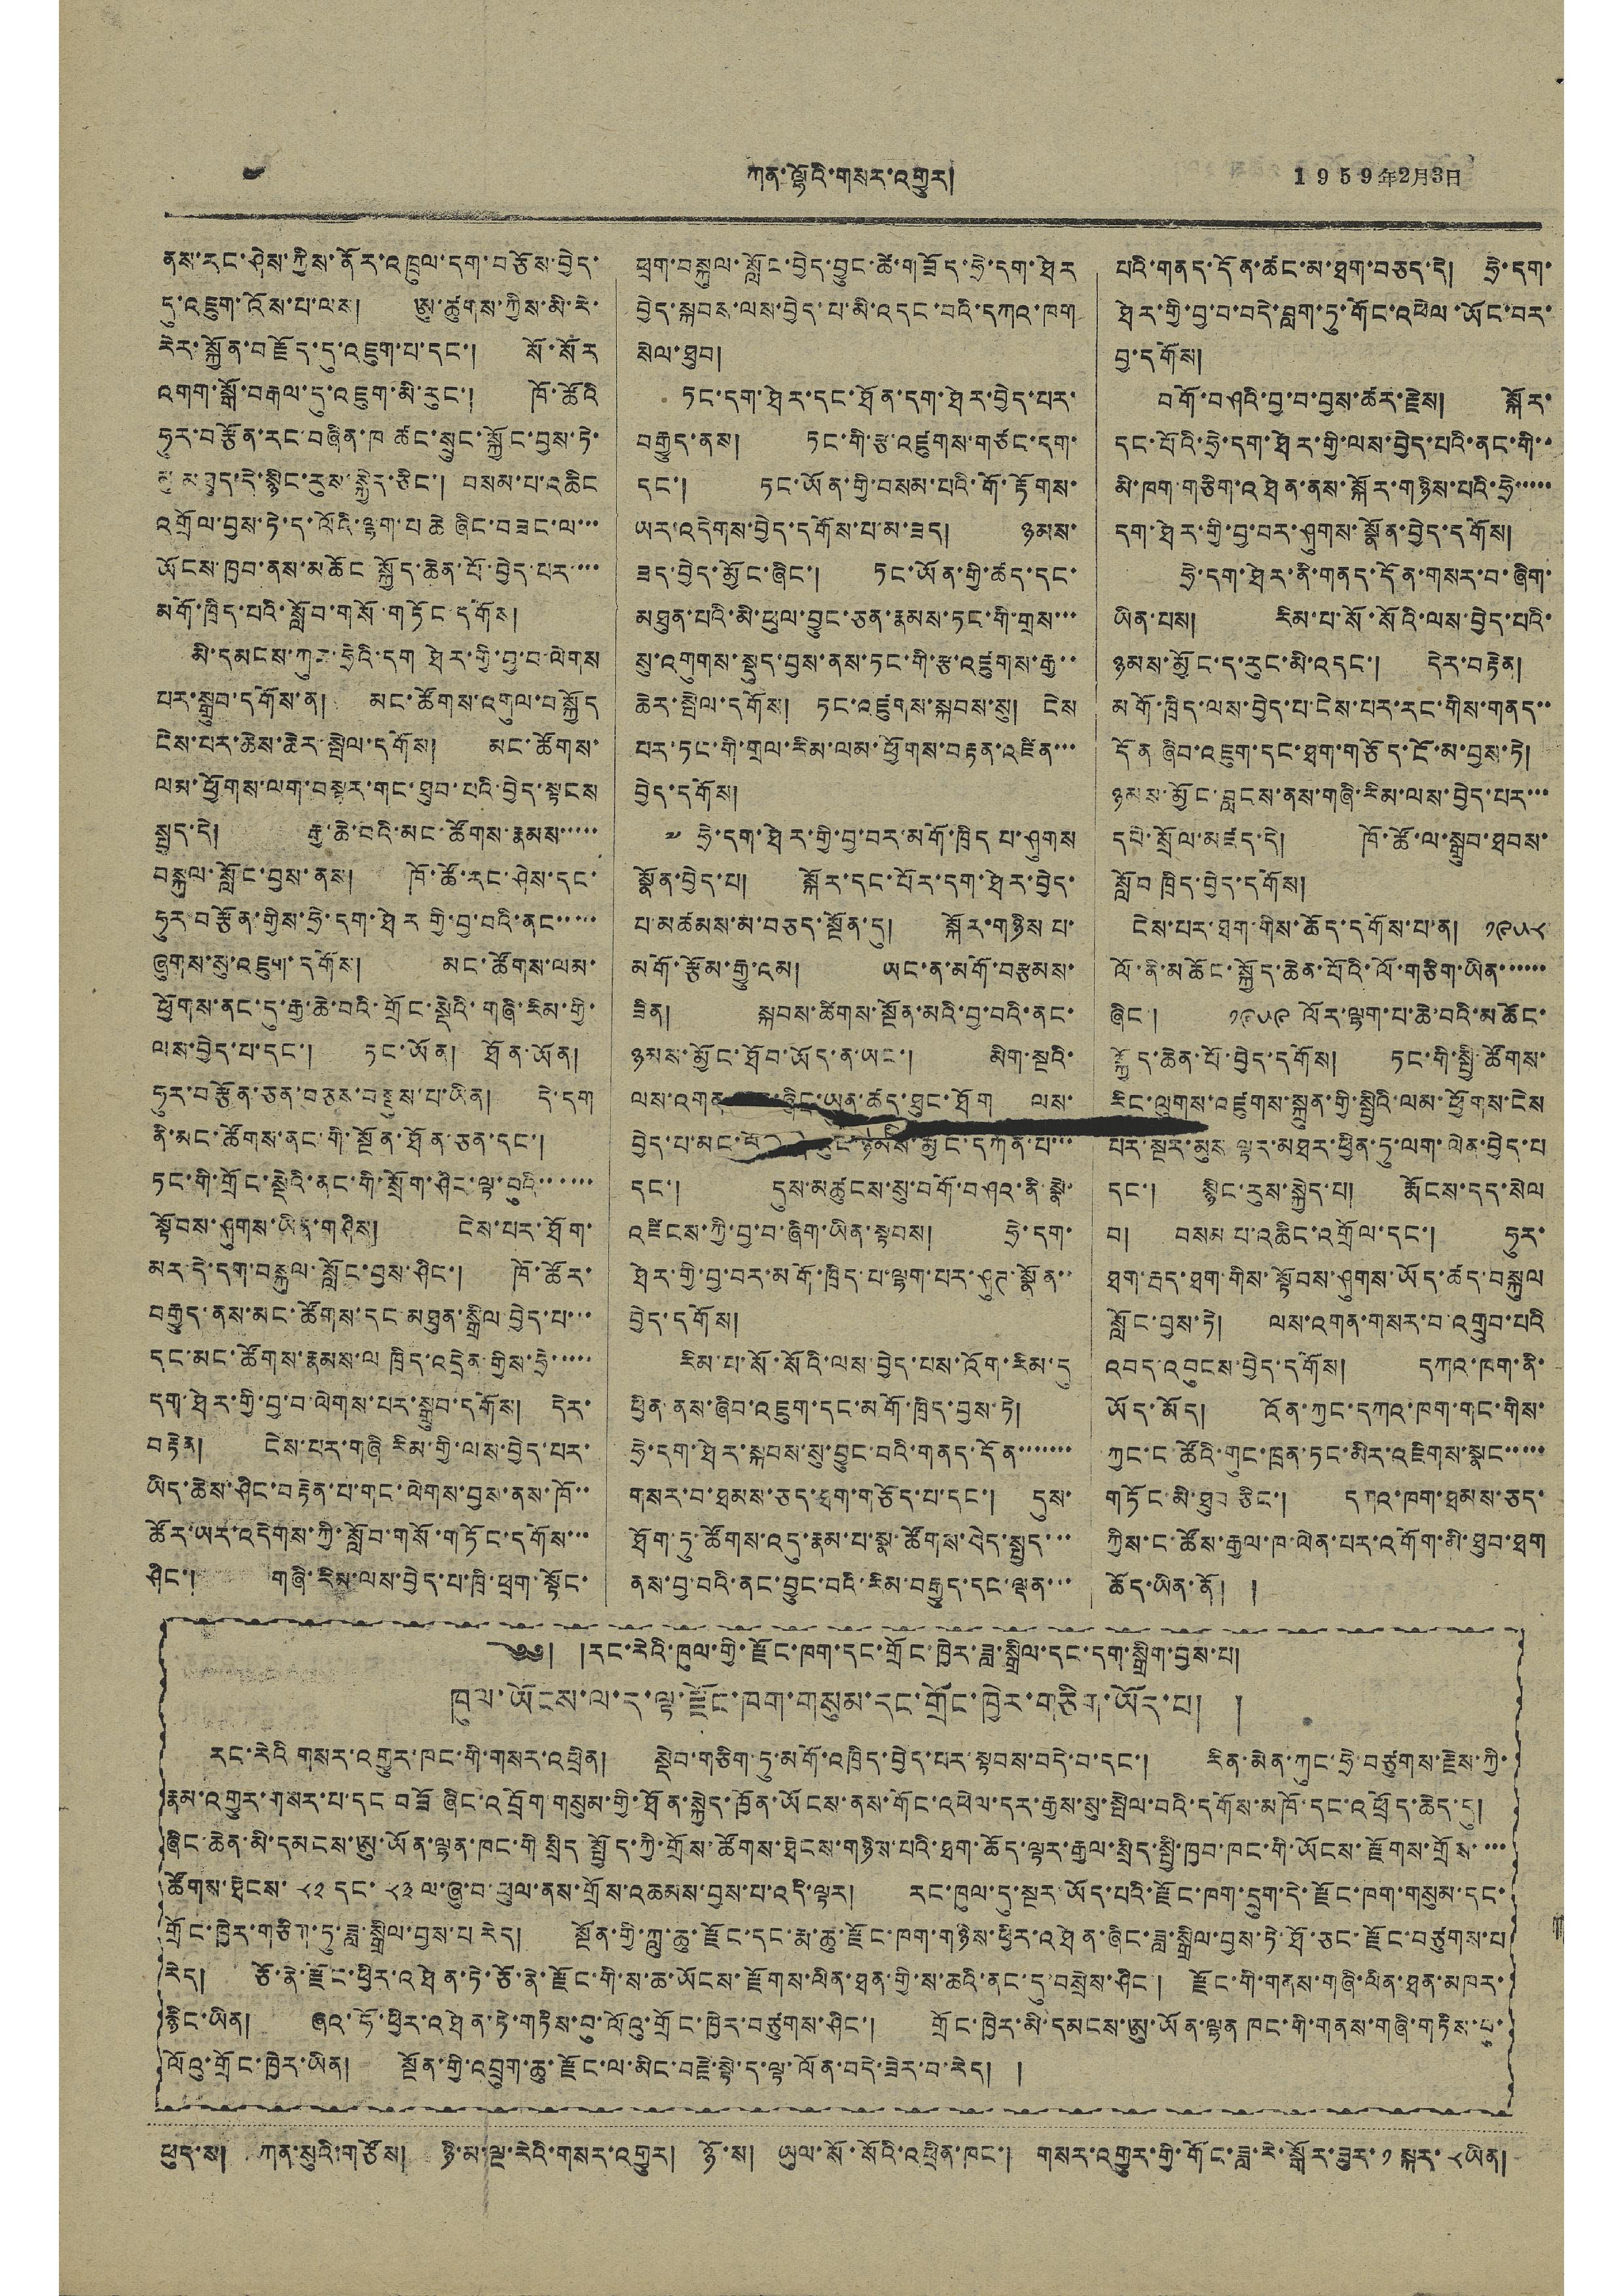༤ ཀན་ལྷོའི་གསར་འགྱུར། 1959年2月3日
ནས་རང་ཤེས་ཀྱིས་ནོར་འཁྲུལ་དག་བཅོས་བྱེད་
དུ་འཇུག་འོས་པ་ལས། ཨུ་ཚུགས་ཀྱིས་མི་རེ་
རེར་སྐྱོན་བརྗོད་དུ་འཇུག་པ་དང་། སོ་སོར
འགག་སྒོ་བརྒལ་དུ་འཇུག་མི་རུང་། ཁོ་ཚོའི
ཧུར་བརྩོན་རང་བཞིན་ཁ་ཚང་སྲུང་སྐྱོང་བྱས་ཏེ་
མུ་མཐུད་དེ་སྙིང་རུས་སྐྱེད་ཅིང་། བསམ་པ་འཆིང
འགྲོལ་བྱས་ཏེ་ད་ལོའི་ལྷག་པ་ཆེ ཞིང་བཟང་ལ་་་
ཡོངས་ཁྱབ་ནས་མཆོང་སྐྱོད་ཆེན་པོ་བྱེད་པར་་་་
མགོ་ཁྲིད་པའི་སློབ་གསོ་གཏོང་དགོས།
མི་དམངས་ཀུང་ཧྲེའི་དག ཐེར་གྱི་བྱ་བ་ལེགས
པར་སྒྲུབ་དགོས་ན། མང་ཚོགས་འགུལ་བསྐྱོད
ངེས་པར་ཆེས་ཆེར་སྤེལ་དགོས། མང་ཚོགས་
ལམ་ཕྱོགས་ལག་བསྟར་གང་ཐུབ་པའི་བྱེད་སྟངས
སྤྱད་དེ། རྒྱ་ཆེ་བའི་མང་ཚོགས་རྣམས་་་་་
བསྐུལ་སློང་བྱས་ནས། ཁོ་ཚོ་རང་ཤེས་དང་
ཧུར་བརྩོན་གྱིས་ཧྲེ་དག་ཐེར གྱི་བྱ་བའི་ནང་་་་་
ཞུགས་སུ་འཇུག་དགོས། མང་ཚོགས་ལམ་
ཕྱོགས་ནང་དུ་རྒྱ་ཆེ་བའི་གྲོང་སྡེའི་གཞི་རིམ་གྱི་
ལས་བྱེད་པ་དང་། ཏང་ཡོན། ཐོན་ཡོན།
ཧུར་བརྩོན་ཅན་བཅས་བསྡུས་པ་ཡིན། དེ་དག
ནི་མང་ཚོགས་ནང་གི་སྔོན་ཐོན་ཅན་དང་།
ཏང་གི་གྲོང་སྡེའི་ནང་གི་སྲོག་ཤིང་ལྟ་བུའི་་་་་་
སྟོབས་ཤུགས་ཡིན་གཤིས། ངེས་པར་ཐོག་
མར་དེ་དག་བསྐུལ་སློང་བྱས་ཤིང་། ཁོ་ཚོར་
བརྒྱུད་ནས་མང་ཚོགས་དང་མཐུན་སྒྲིལ བྱེད་པ་་་
དང་མང་ཚོགས་རྣམས་ལ་ཁྲིད་འདྲེན་གྱིས་ཧྲེ་་་་་
དག་ཐེར་གྱི་བྱ་བ་ལེགས་པར་སྒྲུབ་དགོས། དེར་
བརྟེན། ངེས་པར་གཞི་རིམ་གྱི་ལས་བྱེད་པར་
ཡིད་ཆེས་ཤིང་བརྟེན་པ་གང་ལེགས་བྱས་ནས་ཁོ་་
ཚོར་ཡར་འདེགས་ཀྱི་སློབ་གསོ་གཏོང་དགོས་་་
ཤིང་། གཞི་རིམ་ལས་བྱེད་པ་ཁྲི་ཕྲག་སྟོང་
ཕྲག་བསྐུལ་སློང་བྱེད་བྱུང་ཚེ་གཟོད་ཧྲེ་དག་ཐེར
བྱེད་སྐབས་ལས་བྱེད་པ་མི་འདང་བའི་དཀའ་ཁག
སེལ་ཐུབ།
ཏང་དག་ཐེར་དང་ཐོན་དག་ཐེར་བྱེད་པར་
བརྒྱུད་ནས། ཏང་གི་རྩ་འཛུགས་གཙང་དག་
དང་། ཏང་ཡོན་གྱི་བསམ་པའི་གོ་རྟོགས་
ཡར་འདེགས་བྱེད་དགོས་པ་མ་ཟད། ཉམས་
ཟད་བྱེད་མྱོང་ཞིང་། ཏང་ཡོན་གྱི་ཚད་དང་
མཐུན་པའི་མི་ཕུལ་བྱུང་ཅན་རྣམས་ཏང་གི་གྲས་་་
སུ་འགུགས་སྡུད་བྱས་ནས་ཏང་གི་རྩ་འཛུགས་རྒྱ་་
ཆེར་སྤེལ་དགོས། ཏང་འཛུགས་སྐབས་སུ། ངེས
པར་ཏང་གི་གྲལ་རིམ་ལམ་ཕྱོགས་བརྟན་འཛིན་་་
བྱེད་དགོས།
༧ ཧྲེ་དག་ཐེར་གྱི་བྱ་བར་མགོ་ཁྲིད་པ་ཤུགས
སྣོན་བྱེད་པ། སྐོར་དང་པོར་དག་ཐེར་བྱེད་
པ་མཚམས་མ་བཅད་སྔོན་དུ། སྐོར་གཉིས་པ་
མགོ་རྩོམ་རྒྱུ་ངམ། ཡང་ན་མགོ་བརྩམས་
ཟིན། སྐབས་ཚིགས་སྔོན་མའི་བྱ་བའི་ནང་
ཉམས་མྱོང་ཐོབ་ཡོད་ན་ཡང་། མིག་སྔའི་
ལས་འགན་མང་ཞིང་ཡུན་ཚད་ཐུང་ཐོག ལས་
བྱེད་པ་མང་པོར་ད་རུང་ཉམས་མྱོང་དཀོན་པ་་་
དང་། དུས་མཚུངས་སུ་བགོ་བཤའ་ནི་སྣེ་
འཛིངས་ཀྱི་བྱ་བ་ཞིག་ཡིན་སྟབས། ཧྲེ་དག་
ཐེར་གྱི་བྱ་བར་མགོ་ཁྲིད་པ་ལྷག་པར་ཤུཊ་སྣོན་་
བྱེད་དགོས།
རིམ་པ་སོ་སོའི་ལས་བྱེད་པས་འོག་རིམ་དུ
ཕྱིན་ནས་ཞིབ་འཇུག་དང་མགོ་ཁྲིད་བྱས་ཏེ།
ཧྲེ་དག་ཐེར་སྐབས་སུ་བྱུང་བའི་གནད་དོན་་་་་་་
གསར་བ་ཐམས་ཅད་ཐག་གཅོད་པ་དང་། དུས་
ཐོག་ཏུ་ཚོགས་འདུ་རྣམ་པ་སྣ་ཚོགས་བེད་སྤྱད་་་
ནས་བྱ་བའི་ནང་བྱུང་བའི་རིམ་བརྒྱུད་དང་ལྡན་་་
པའི་གནད་དོན་ཚང་མ་ཐག་བཅད་དེ། ཧྲེ་དག་
ཐེར་གྱི་བྱ་བ་བདེ་བླག་ཏུ་གོང་འཕེལ་ཡོང་བར་
བྱ་དགོས།
བགོ་བཤའི་བྱ་བ་བྱས་ཚར་རྗེས། སྐོར་
དང་པོའི་ཧྲེ་དག་ཐེར་གྱི་ལས་བྱེད་པའི་ནང་གི་་
མི་ཁག་གཅིག་འཐེན་ནས་སྐོར་གཉིས་པའི་ཧྲེ་་་་་
དག་ཐེར་གྱི་བྱ་བར་ཤུགས་སྣོན་བྱེད་དགོས།
ཧྲེ་དག་ཐེར་ནི་གནད་དོན་གསར་བ་ཞིག་
ཡིན་པས། རིམ་པ་སོ་སོའི་ལས་བྱེད་པའི་
ཉམས་མྱོང་ད་རུང་མི་འདང་། དེར་བརྟེན།
མགོ་ཁྲིད་ལས་བྱད་པ་ངེས་པར་རང་གིས་གནད་་
དོན ཞིབ་འཇུག་དང་ཐག་གཅོད་ངོ་མ་བྱས་ཏེ།
ཉམས་མྱོང་བླངས་ནས་གཞི་རིམ་ལས་བྱེད་པར་་་
དཔེ་སྲོལ་མཛད་དེ། ཁོ་ཚོ་ལ་སྒྲུབ་ཐབས་
སློབ་ཁྲིད་བྱེད་དགོས།
ངེས་པར་ཐག་གིས་ཆོད་དགོས་པ་ན། ༡༩༥༨
ལོ་ནི་མཆོང་སྐྱོད་ཆེན་པོའི་ལོ་གཅིག་ཡིན་་་་་་
ཞིང་། ༡༩༥༩ ལོར་ལྷག་པ་ཆེ་བའི་མཆོང་
སྐྱོད་ཆེན་པོ་བྱེད་དགོས། ཏང་གི་སྤྱི་ཚོགས་
རིང་ལུགས་འཛུགས་སྐྲུན་གྱི་སྤྱིའི་ལམ་ཕྱོགས་ངེས
པར་སྔར་མུས ལྟར་མཐར་ཕྱིན་ཏུ་ལག་ལེན་བྱེད་པ
དང་། སྙིང་རུས་སྐྱེད་པ། རྨོངས་དད་སེལ
བ། བསམ པ་འཆིང་འགྲོལ་དང་། ཧུར་
ཐག་རྦད་ཐག་གིས་སྟོབས་ཤུགས་ཡོད་ཚད་བསྐུལ
སློང་བྱས་ཏེ། ལས་འགན་གསར་བ་འགྲུབ་པའི
འབད་འབུངས་བྱེད་དགོས། དཀའ་ཁག་ནི་
ཡོད་མོད། འོན་ཀྱང་དཀའ་ཁག་གང་གིས་
ཀྱང་ང་ཚོའི་གུང་ཁྲན་ཏང་མིར་འཇིགས་སྣང་་་་་
གཏོང་མི་ཐུབ ཅིང་། དཀའ་ཁག་ཐམས་ཅད་
ཀྱིས་ང་ཚོས་རྒྱལ་ཁ་ལེན་པར་འགོག་མི་ཐུབ་ཐག
ཆོད་ཡིན་ནོ། །
༄༅། །རང་རེའི་ཁུལ་གྱི་རྫོང་ཁག་དང་གྲོང་ཁྱེར་ཟླ་སྒྲིལ་དང་དག་སྒྲིག་བྱས་པ།
ཁུལ་ཡོངས་ལ་ད་ལྟ་རྫོང་ཁག་གསུམ་དང་གྲོང་ཁྱེར་གཅིག་ཡོད་པ། །
རང་རེའི་གསར་འགྱུར་ཁང་གི་གསར་འཕྲིན། སྡེབ་གཅིག་ཏུ་མགོ་འཁྲིད་བྱེད་པར་སྟབས་བདེ་བ་དང་། རིན་མེན་ཀུང་ཧྲེ་བཙུགས་རྗེས་ཀྱི་
རྣམ་འགྱུར་གསར་པ་དང་བཟོ་ཞིང་འབྲོག་གསུམ་གྱི་ཐོན་སྐྱེད་ཁྱོན་ཡོངས་ནས་གོང་འཕེལ་དར་རྒྱས་སུ་སྤེལ་བའི་དགོས་མཁོ་དང་འཕྲོད་ཆེད་དུ།
ཞིང་ཆེན་མི་དམངས་ཨུ་ཡོན་ལྷན་ཁང་གི་སྲིད སྤྱོད་ཀྱི་གྲོས་ཚོགས་ཐེངས་གཉིས་པའི་ཐག་ཆོད་ལྟར་རྒྱལ་སྲིད་སྤྱི་ཁྱབ་ཁང་གི་ཡོངས་རྫོགས་གྲོས་་་་
ཚོགས་ཐེངས་ ༨༢ དང་ ༨༣ ལ་ཞུ་བ་ཕུལ་ནས་གྲོས་འཆམས་བྱས་པ་འདི་ལྟར། རང་ཁུལ་དུ་སྔར་ཡོད་པའི་རྫོང་ཁག་དྲུག་དེ་རྫོང་ཁག་གསུམ་དང་
གྲོང་ཁྱེར་གཅིག་ཏུ་ཟླ་སྒྲིལ་བྱས་པ་རེད། སྔོན་གྱི་ཀླུ་ཆུ་རྫོང་དང་རྨ་ཆུ་རྫོང་ཁག་གཉིས་ཕྱིར་འཐེན་ཞིང་ཟླ་སྒྲིལ་བྱས་ཏེ་ཐོ་ཅང་རྫོང་བཙུགས་པ
རེད། ཅོ་ནེ་རྫོང་ཕྱིར་འཐེན་ཏེ་ཅོ་ནེ་རྫོང་གི་ས་ཆ་ཡོངས་རྫོགས་ལིན་ཐན་གྱི་ས་ཆའི་ནང་དུ་བསྲེས་ཤིང་། རྫོང་གི་གནས་གཞི་ལིན་ཐན་མཁར་
རྙིང་ཡིན། ཞའ་ཧོ་ཕྱིར་འཐེན་ཏེ་གཏིས་བུ་ལོའུ་གྲོང་ཁྱེར་བཙུགས་ཤིང་། གྲོང་ཁྱེར་མི་དམངས་ཨུ་ཡོན་ལྷན་ཁང་གི་གནས་གཞི་གཏིས་བུ་
ལོའུ་གྲོང་ཁྱེར་ཡིན། སྔོན་གྱི་འབྲུག་ཆུ་རྫོང་ལ་མིང་བརྗེ་སྟེ་ད་ལྟ་ལོན་བདེ་ཟེར་བ་རེད། །
ཕུད་ས། ཀན་སུའི་གཙོས། ཉི་མ་ལྔ་རེའི་གསར་འགྱུར། ཉོ་ས། ཡུལ་སོ་སོའི་འཕྲིན་ཁང་། གསར་འགྱུར་གྱི་གོང་ཟླ་རེ་སྒོར་ཟུར་ ༡ སྐར་ ༨ ཡིན།
